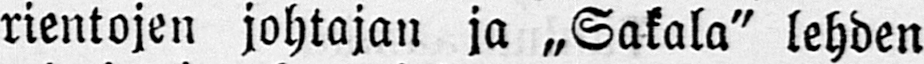rientojen johtajan ja „Sakala" lehden
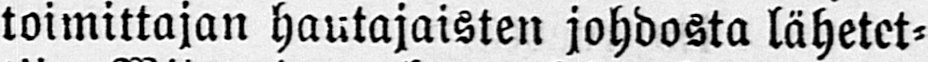toimittajan hautajaisten johdosta lähetet-
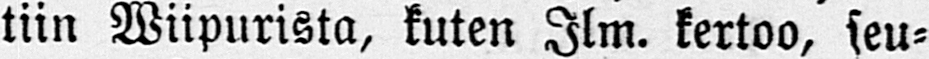tiin Wiipurista, kuten Ilm. kertoo, seu-
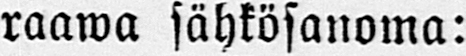raawa sähkösanoma:
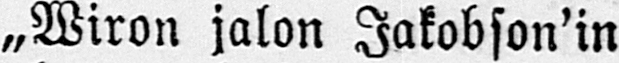„Wiron jalon Jakobson'in
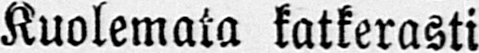Kuolemata katkerasti
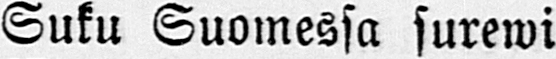Suku Suomessa surewi
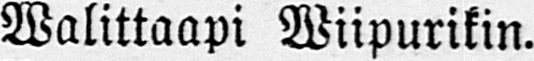Walittaapi Wiipurikin.
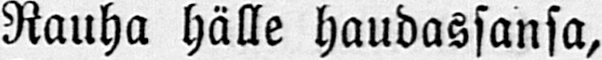Rauha hälle haudassansa.
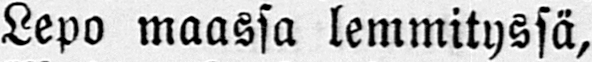Lepo maassa lemmityssä,
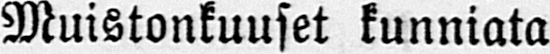Muistonkuuset kunniata
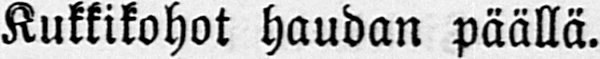Kukkikohot haudan päällä.
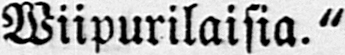Wiipurilaisia."
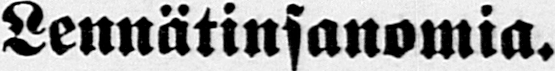Lennätinsanomia.
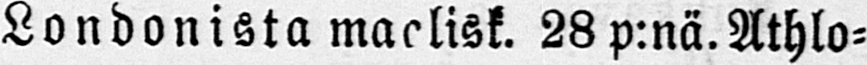Londonista maalisk. 28 p:nä. Athlo-
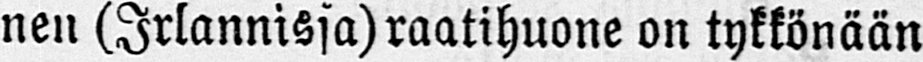nen (Irlannissa) raatihuone on tykkönään
